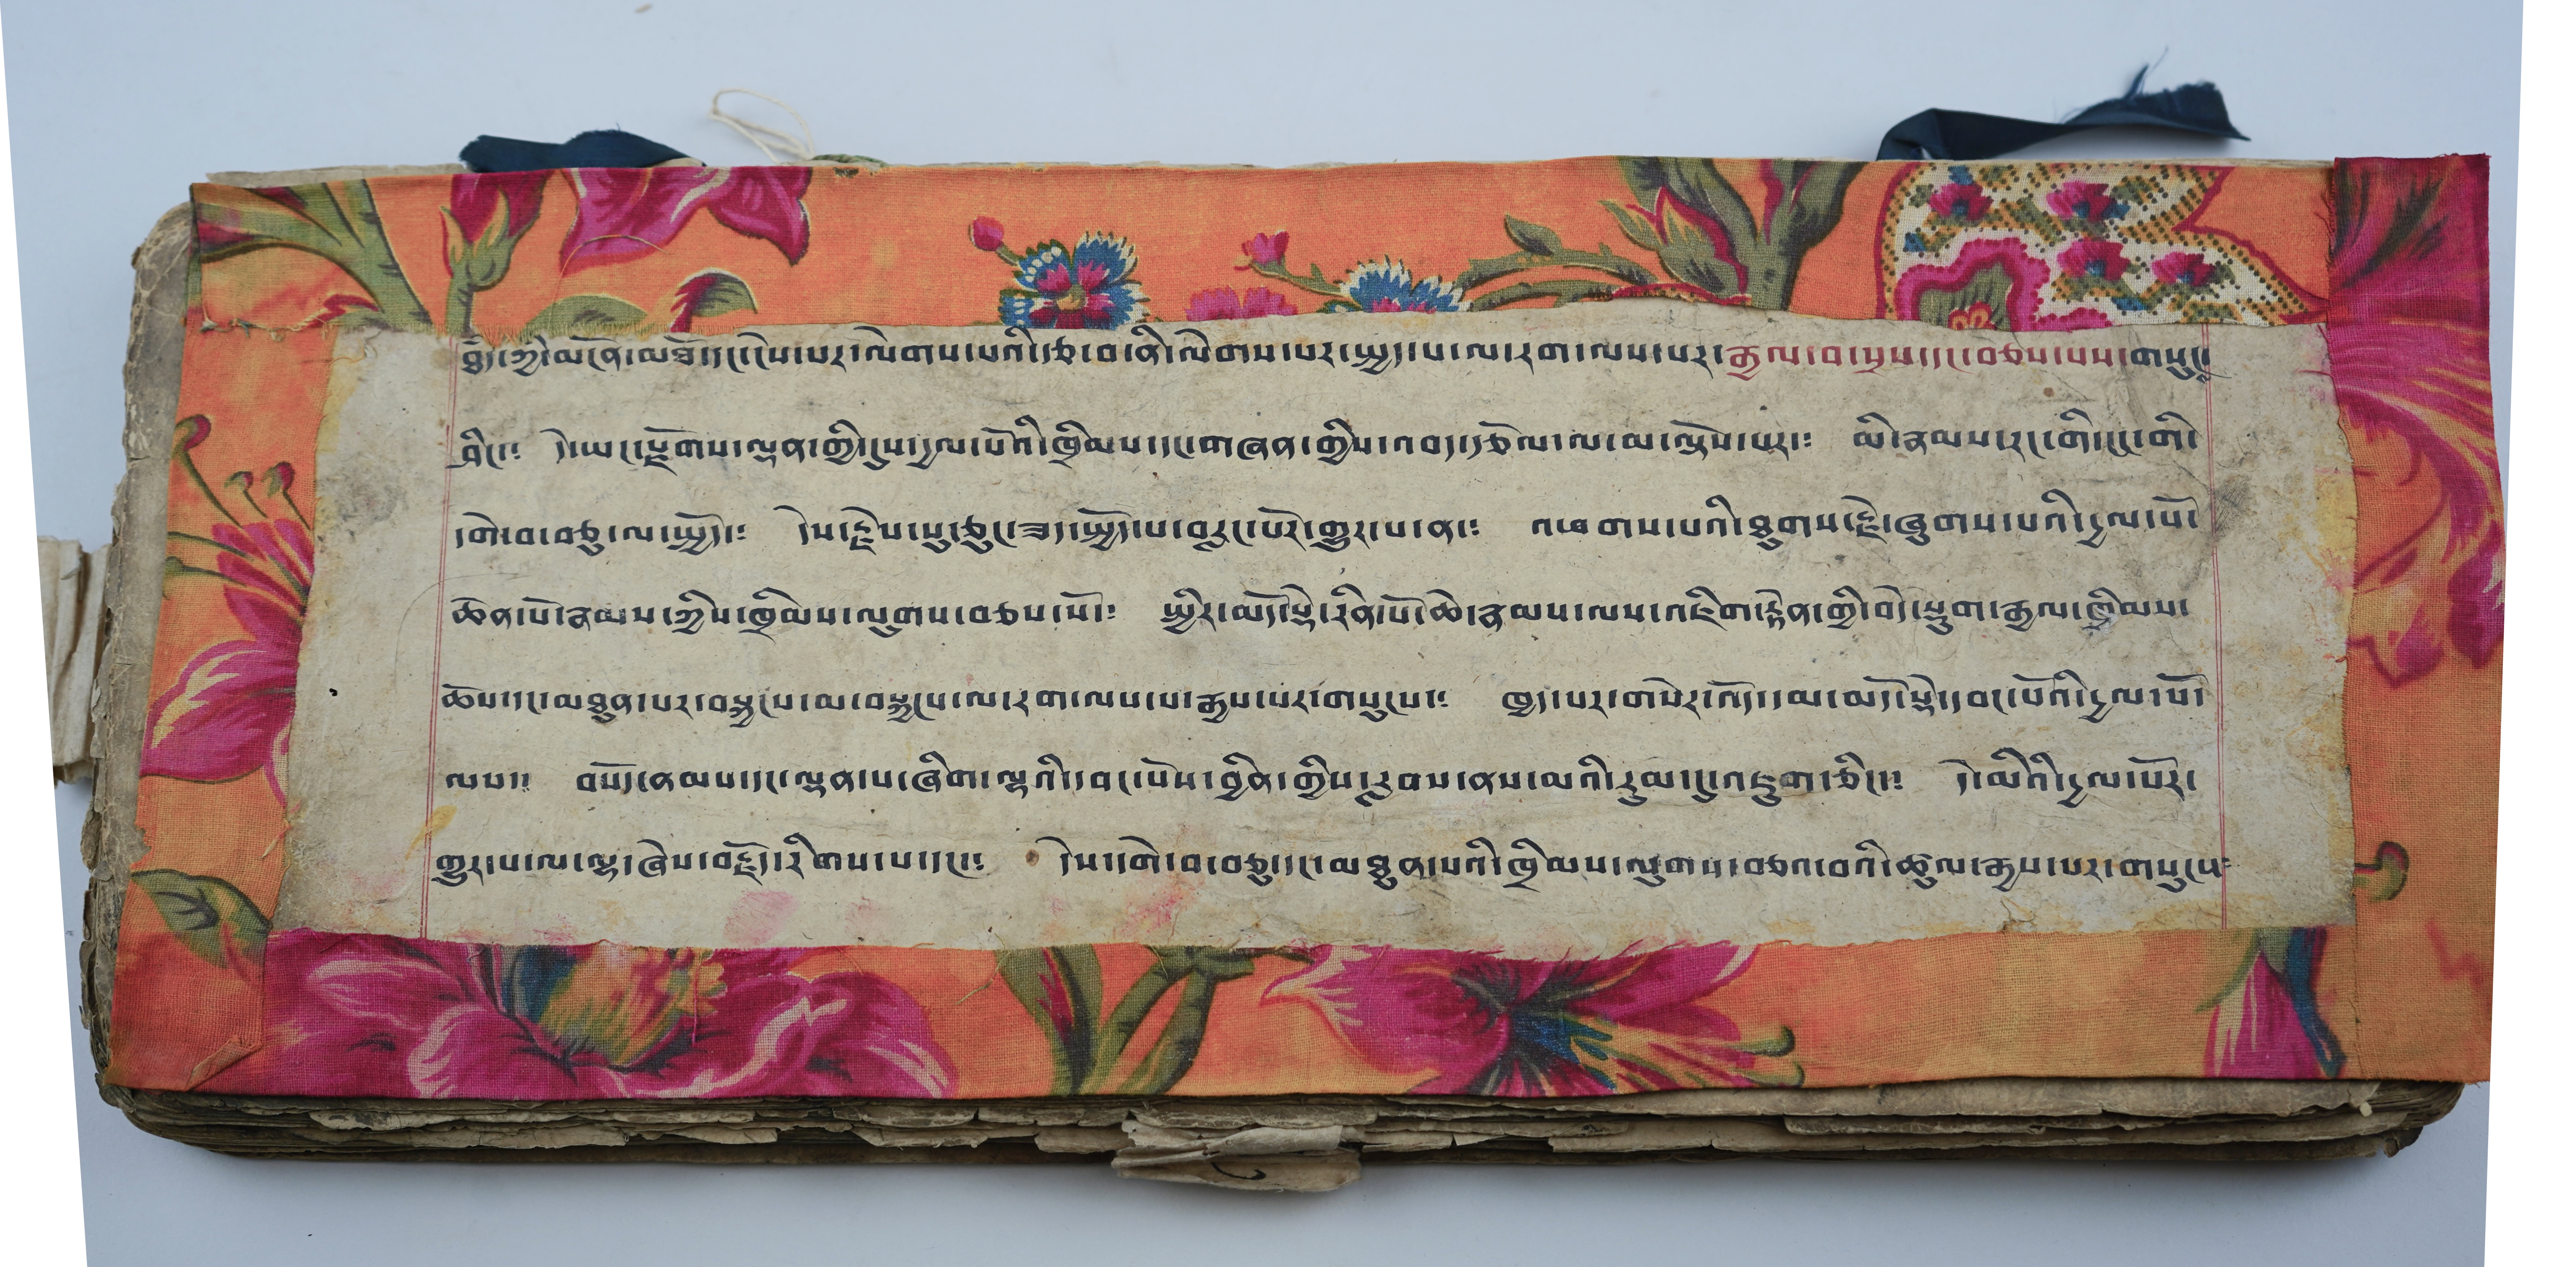ཐཾད་ཀྱི་མངོན་མཐོ་དང་ངེས་པར་ལེགས་པར་རྩ་བ་ནི་ལེགས་པར་སྤྱད་པ་ལ་རག་ལས་པར་རྒྱལ་བ་སྲས་དང་བཅས་པས་གསུངས་
ཤིང་༴ དེ་ཡང་རྫོགས་ལྡན་གྱི་དུས་དྱལ་པོའི་ཁྲིམས་དང་གཞན་གྱིས་འབད་རྩོལ་ལ་མ་ལྟོས་པར་༴ མི་རྣམས་རང་གི་ངང་གི་
དགེ་བ་བཅུ་ལ་སྤྱོད་༴ དེས་རྗེས་སུ་ཅུང་ཟད་སྤྱོད་པ་བརླང་པོར་གྱུར་པ་ན་༴ འཕགས་པའི་ཐུགས་རྗེ་ཞུགས་པའི་དྱལ་པོ་
ཆེན་པོ་རྣམས་ཀྱིས་ཁྲིམས་ལུགས་བཅས་སོ་༴ སྤྱིར་མདོ་སྡེ་རིན་པོ་ཆེ་རྣམས་ལས་འཇིག་རྟེན་གྱི་བདེ་སྡུག་རྒྱལ་ཁྱིམས་
ཆོས་དང་མཐུན་པར་བསྐྱངས་མ་བསྐྱངས་ལ་རག་ལས་པ་རྒྱས་པར་གསུངས་༴ ཁྱད་པར་གསེར་འོད་དམ་མདོ་སྡེ་དབང་པོའི་དྱལ་པོ་
ལས་༴ བསོད་ནམས་དང་ལྡན་པ་ཞིག་ལྷའི་དབང་པོས་བྱིན་གྱིས་རླབས་ནས་མའི་རུམ་དུ་འཇུག་ཅིང་༴ དེ་མིའི་རྒྱལ་པོར་
གྱུར་པ་ལ་ལྷ་ཞེས་བརྗོད་རིགས་པ་དང་༴ དེས་དགེ་བ་བཅུ་དང་མཐུན་པའི་ཁྲིམས་ལུགས་བཅའ་བའི་ཚུལ་རྒྱས་པར་གསུངས༴
